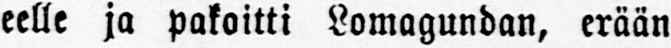eelle ja pakoitti Lomagundan, erään
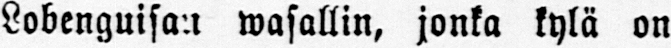Lobenguisan wasallin, jonka kylä on
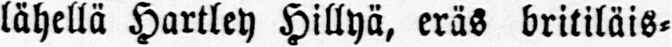lähellä Hartley Hillyä, eräs britiläis-
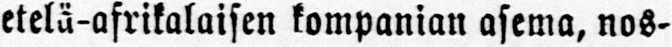etelä-afrikalaisen kampanian asema, nos-
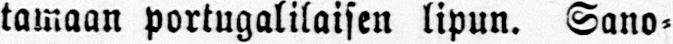tamaan portugalilaisen lipun. Sano-
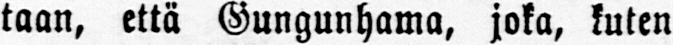taan, että Gungunhama, joka, kuten
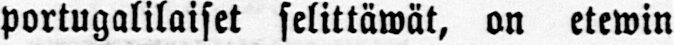portugalilaiset selittäwät, on etewin
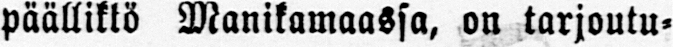päälliklö Manikamaassa, on tarjoutu-
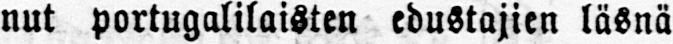nut portugalilaisten edustajien läsnä
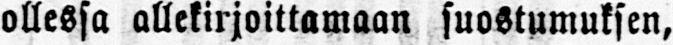ollessa allekirjoittamaan suostumuksen,
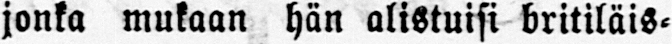jonka mukaan hän alistuisi britiläis-
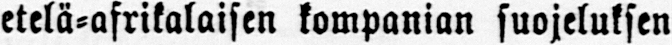etelä-afrikalaisen kampanian suojeluksen
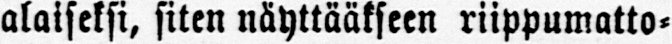alaiseksi, siten näyttääkseen riippumatto-
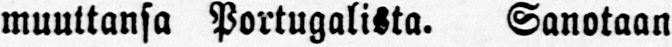muuttansa Portugalista. Sanotaan
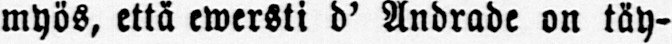myös, että ewersti d' Andrade on täy-
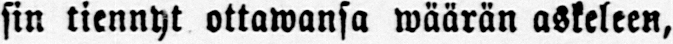sin tiennyt ottawansa wäärän askeleen,
